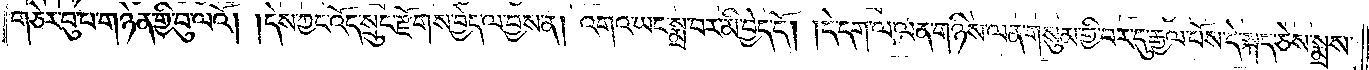གཅེར་བུ་པ་གཉེན་གྱི་བུ་ལའོ། །དེས་ཀྱང་འོད་སྲུང་རྫོགས་བྱེད་ལ་བྱས་ན། འགའ་ཡང་སྨྲ་བར་མི་བྱེད་དོ། །དེ་དག་ལ་ལན་གཉིས་ལན་གསུམ་གྱི་བར་དུ་རྒྱལ་པོས་དེ་སྐད་ཅེས་སྨྲས་
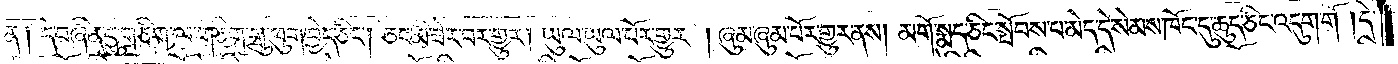ན༑ དེ་བཞིན་དུ་གཅིག་ལ་གཅིག་གྲུ་ཕུག་བྱེད་ཅིང༌། ཅང་མི་ཟེར་བར་གྱུར། ཡུལ་ཡུལ་པོར་གྱུར། ཞུམ་ཞུམ་པོར་གྱུར་ནས། མགོ་སྨད་ཅིང་སྤོབས་པ་མེད་དེ་སེམས་ཁོང་དུ་ཆུད་ཅིང་འདུག་གོ །དེ་
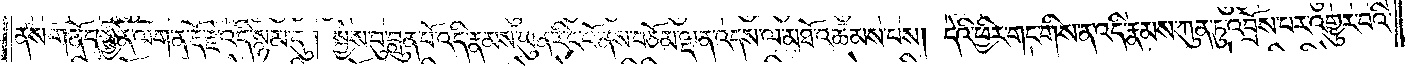ནས་གནོད་སྦྱིན་ལག་ན་རྡོ་རྗེ་འདི་སྙམ་དུ། སྐྱེས་བུ་བླུན་པོ་འདི་རྣམས་ཡུན་རིང་པོ་ནས་བཅོམ་ལྡན་འདས་ལ་མཐོ་འཚམས་པས། དེའི་ཕྱིར་གང་གིས་ན་འདི་རྣམས་ཀུན་ཏུ་འབྲོས་པར་འགྱུར་བའི་
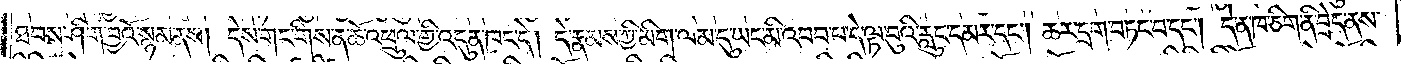ཐབས་ཤིག་བྱའོ་སྙམ་ནས། དེས་གང་གིས་ན་ཆོ་འཕྲུལ་གྱི་འདུན་ཁང་དེ། དེ་རྣམས་ཀྱི་མིག་ལམ་དུ་ཡང་མི་འབབ་པ་དེ་ལྟ་བུའི་རླུང་དམར་དང༌། ཆར་དྲག་བཏང་བ་དང༌། དེ་ན་ཁ་ཅིག་ནི་བྲེད་ནས་
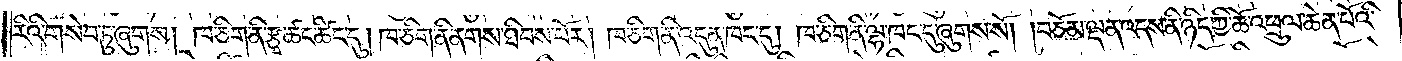རིའི་གསེབ་ཏུ་ཞུགས། ཁ་ཅིག་ནི་རྩྭ་ཚང་ཚིང་དུ། ཁ་ཅིག་ནི་ནགས་ཐིབས་པོར། ཁ་ཅིག་ནི་འདུན་ཁང་དུ། ཁ་ཅིག་ནི་ལྷ་ཁང་དུ་ཞུགས་སོ། །བཅོམ་ལྡན་འདས་ནི་ཉིད་ཀྱི་ཆོ་འཕྲུལ་ཆེན་པོའི་
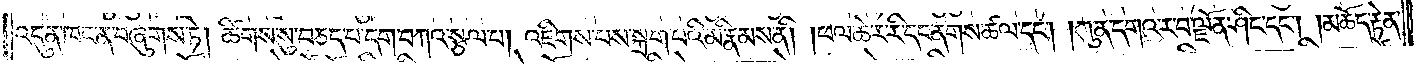འདུན་ཁང་ན་བཞུགས་ཏེ། ཚིགས་སུ་བཅད་པ་དག་བཀའ་སྩལ་པ། འཇིགས་པས་སྐྲག་པའི་མི་རྣམས་ནི། །ཕལ་ཆེར་རི་དང་ནགས་ཚལ་དང༌། །ཀུན་དགའ་ར་བ་ལྗོན་ཤིང་དང༌། །མཆོད་རྟེན་
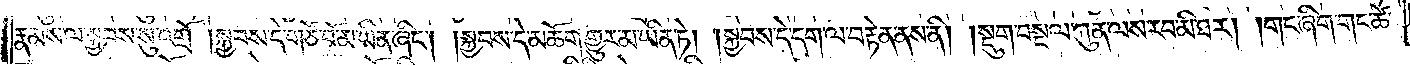རྣམས་ལ་སྐྱབས་སུ་འགྲོ། །སྐྱབས་དེ་གཙོ་བོ་མ་ཡིན་ཞིང༌། །སྐྱབས་དེ་མཆོག་གྱུར་མ་ཡིན་ཏེ། །སྐྱབས་དེ་དག་ལ་བརྟེན་ནས་ནི། །སྡུག་བསྔལ་ཀུན་ལས་རབ་མི་ཐར། །གང་ཞིག་གང་ཚེ་
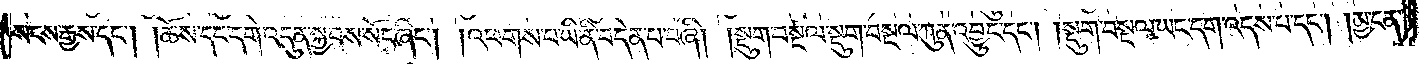སངས་རྒྱས་དང༌། ཆོས་དང་དགེ་འདུན་སྐྱ་བས་སོང་ཞིང༌། །འཕགས་པ་ཡི་ནི་བདེན་པ་བཞི། །སྡུག་བསྔལ་སྡུག་བསྔལ་ཀུན་འབྱུང་དང༌། །སྡུག་བསྔལ་ཡང་དག་འདས་པ་དང༌། །མྱ་ངན་
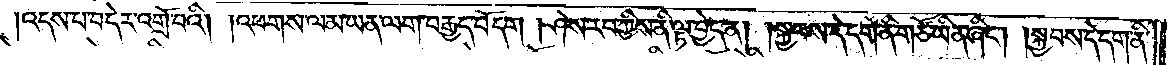འདས་པ་བདེར་འགྲོ་བའི། །འཕགས་ལམ་ཡན་ལག་བརྒྱད་པོ་དག །ཤེས་རབ་ཀྱིས་ནི་ལྟ་བྱེད་ན། །སྐྱབས་དེ་དག་ནི་གཙོ་ཡིན་ཞིང༌། །སྐྱབས་དེ་དག་ནི་
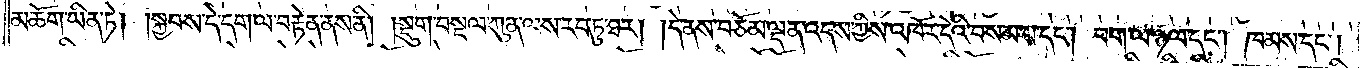མཆོག་ཡིན་ཏེ། །སྐྱབས་དེ་དག་ལ་བརྟེན་ནས་ནི། །སྡུག་བསྔལ་ཀུན་ལས་རབ་ཏུ་ཐར། །དེ་ནས་བཅོམ་ལྡན་འདས་ཀྱིས་འཁོར་དེའི་བསམ་པ་དང༌། བག་ལ་ཉལ་དང༌། ཁམས་དང༌།
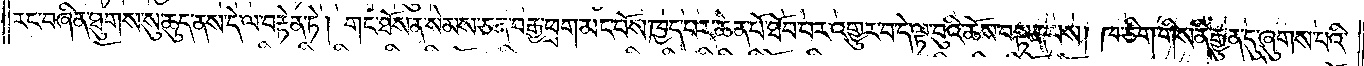རང་བཞིན་ཐུགས་སུ་ཆུད་ནས་དེ་ལ་བརྟེན་ཏེ། གང་ཐོས་ན་སེམས་ཅན་བརྒྱ་ཕྲག་མང་པོས་ཁྱད་པར་ཆེན་པོ་ཐོབ་པར་འགྱུར་བ་དེ་ལྟ་བུའི་ཆོས་བསྟན་པས། ཁ་ཅིག་གིས་ནི་རྒྱུན་དུ་ཞུགས་པའི་
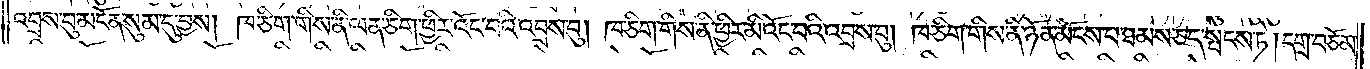འབྲས་བུ་མངོན་སུམ་དུ་བྱས། ཁ་ཅིག་གིས་ནི་ལན་ཅིག་ཕྱིར་འོང་བའི་འབྲས་བུ། ཁ་ཅིག་གིས་ནི་ཕྱིར་མི་འོང་བའི་འབྲས་བུ། ཁ་ཅིག་གིས་ནི་ཉོན་མོངས་པ་ཐམས་ཅད་སྤངས་ཏེ། དགྲ་བཅོམ་
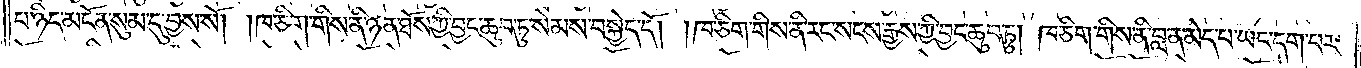པ་ཉིད་མངོན་སུམ་དུ་བྱས་སོ། །ཁ་ཅིག་གིས་ནི་ཉན་ཐོས་ཀྱི་བྱང་ཆུབ་ཏུ་སེམས་བསྐྱེད་དོ། །ཁ་ཅིག་གིས་ནི་རང་སངས་རྒྱས་ཀྱི་བྱང་ཆུབ་ཏུ། ཁ་ཅིག་གིས་ནི་བླ་ན་མེད་པ་ཡང་དག་པར་
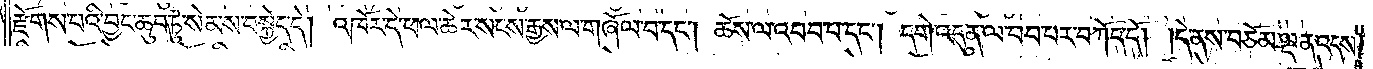རྫོགས་པའི་བྱང་ཆུབ་ཏུ་སེམས་བསྐྱེད་དེ། འཁོར་དེ་ཕལ་ཆེར་སངས་རྒྱས་ལ་གཞོལ་བ་དང༌། ཆོས་ལ་འབབ་པ་དང༌། དགེ་འདུན་ལ་བབ་པར་བཀོད་དོ། །དེ་ནས་བཅོམ་ལྡན་འདས་
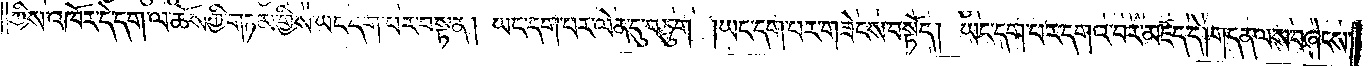ཀྱིས་འཁོར་དེ་དག་ལ་ཆོས་ཀྱི་གཏམ་གྱིས་ཡང་དག་པར་བསྟན། ཡང་དག་པར་ལེན་དུ་བཅུག །ཡང་དག་པར་གཟེངས་བསྟོད། ཡང་དག་པར་དགའ་བར་མཛད་དེ། གདན་ལས་བཞེངས་
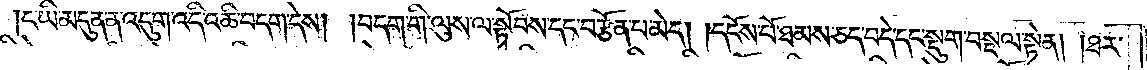ང་ཡི་མདུན་ན་འདུག་འདི་འཆི་བདག་དེས། །བདག་གི་ལུས་ལ་སྟོབས་དང་བརྩོན་པ་མེད། །དངོས་པོ་ཐམས་ཅད་བདེ་དང་སྡུག་བསྔལ་སྟེན། །ཐར་
